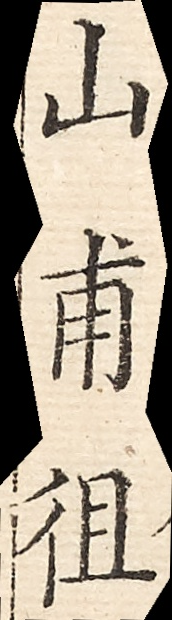山甫徂
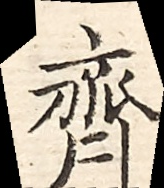齊
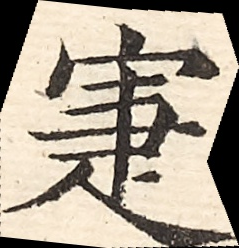寁
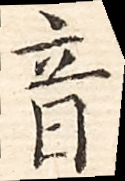音
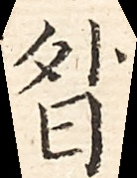昝
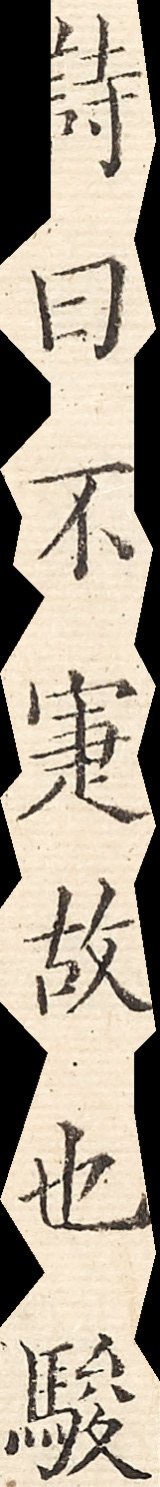詩曰不寁故也駿
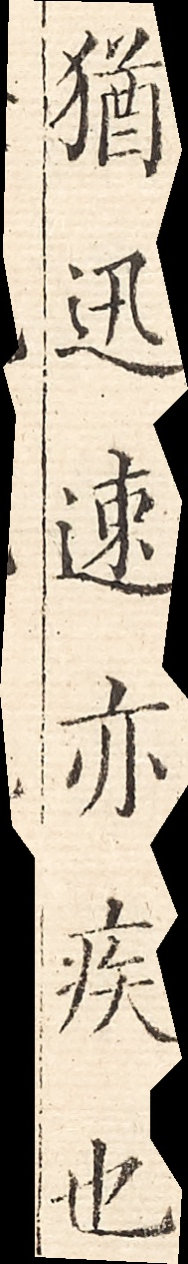猶迅速亦疾也
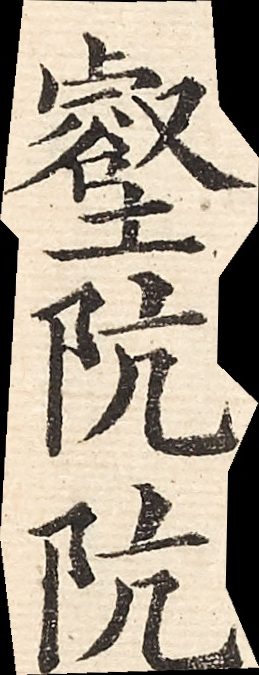壑阬阬
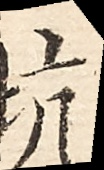坑
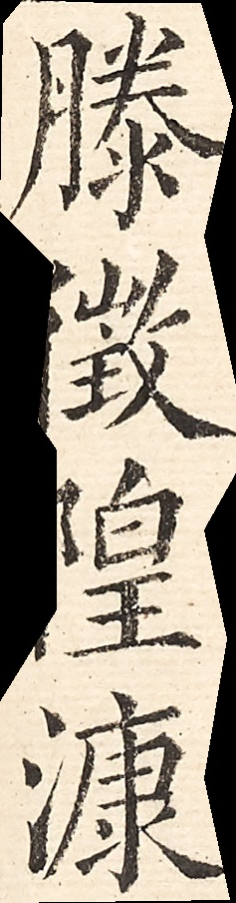滕徵隍漮
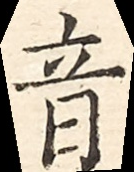音
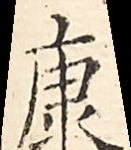康
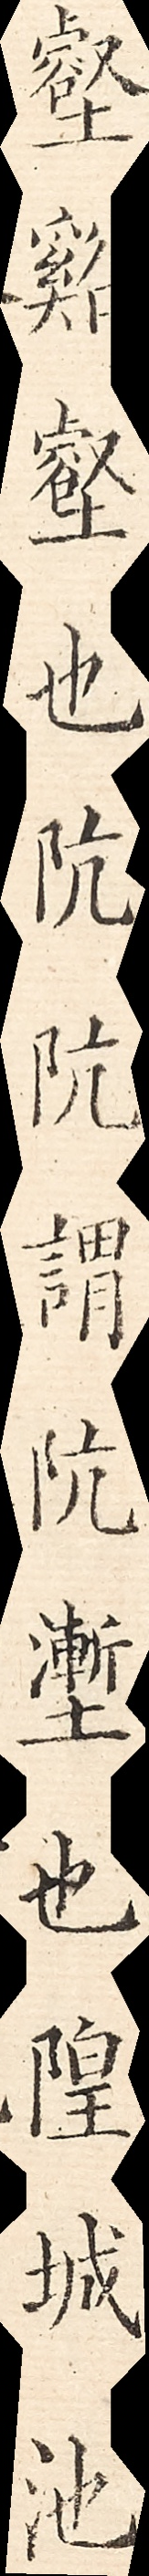壑谿壑也阬阬謂阬巉也隍城池
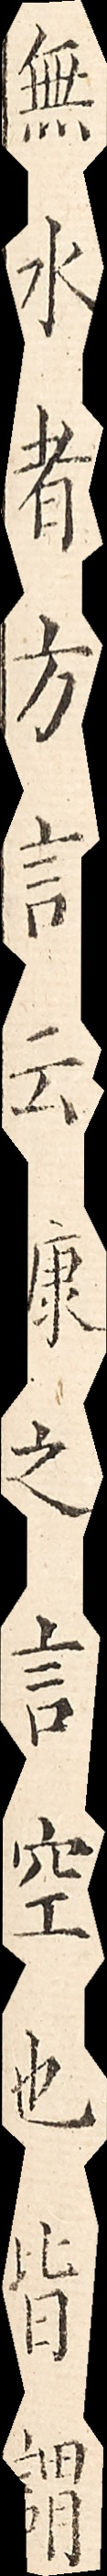無水者方言云漮之言空也皆謂
